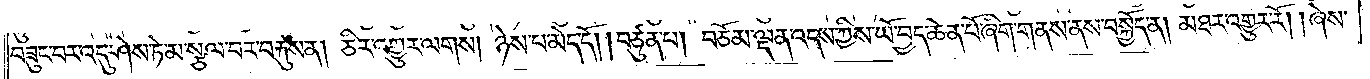བཟུང་བར་འདུ་ཤེས་ཏེ་མ་སྩལ་བར་བརྐུས་ན། ཅིར་འགྱུར་ལགས། ཉེས་པ་མེད་དོ། །བཙུན་པ། བཅོམ་ལྡན་འདས་ཀྱིས་ཡོ་བྱད་ཆེན་པོ་ཞིག་གནས་ནས་བསྐྱོད་ན། མཐར་འགྱུར་རོ། །ཞེས་
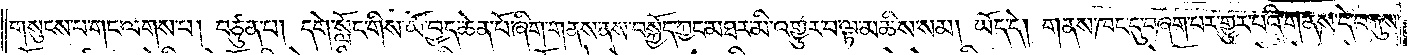གསུངས་པ་གང་ལགས་པ། བཙུན་པ། དགེ་སློང་གིས་ཡོ་བྱད་ཆེན་པོ་ཞིག་གནས་ནས་བསྐྱོད་ཀྱང་མཐར་མི་འགྱུར་བ་ལྟ་མཆིས་སམ། ཡོད་དེ། གནས་ཁང་དུ་བཞག་པར་འགྱུར་པའི་གནས་དེ་བརྐུས་
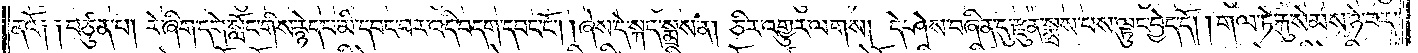ནའོ༑ ༑བཙུན་པ། རེ་ཞིག་དགེ་སློང་གིས་རྙེད་པ་མི་དབང་བར་འདི་བདག་དབང་ངོ༌། །ཞེས་དེ་སྐད་སྨྲས་ན། ཅིར་འགྱུར་ལགས། དེ་ཤེས་བཞིན་དུ་རྫུན་སྨྲས་པས་ལྟུང་བྱེད་དོ། །གལ་ཏེ་རྐུ་སེམས་ཉེ་བར་
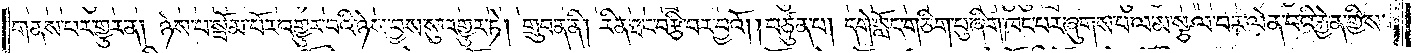གནས་པར་གྱུར་ན། ཉེས་པ་སྦོམ་པོར་འགྱུར་བའི་ཉེས་བྱས་སུ་འགྱུར་ཏེ། གྲུབ་ན་ནི། རིན་ཐང་བརྩི་བར་བྱའོ། །བཙུན་པ། དགེ་སློང་གཅིག་པུ་ཞིག་ཁང་པར་ཞུགས་པ་ལ་མ་སྩལ་བར་ལེན་པའི་རྐྱེན་གྱིས་
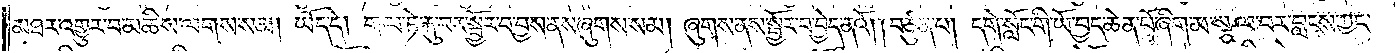མཐར་འགྱུར་བ་མཆིས་ལགས་སམ། ཡོད་དེ། གལ་ཏེ་རྐུ་བར་སྦྱོར་བ་བྱས་ནས་ཞུགས་སམ། ཞུགས་ནས་སྦྱོར་བ་བྱེད་ནའོ། །བཙུན་པ། དགེ་སློང་གི་ཡོ་བྱད་ཆེན་པོ་ཞིག་མ་སྩལ་བར་བླངས་ཀྱང་
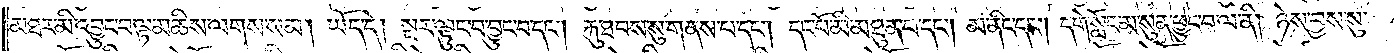མཐར་མི་འབྱུང་བ་ལྟ་མཆིས་ལགས་སམ། ཡོད་དེ། སྔར་ལྟུང་བ་བྱུང་བ་དང༌། རྐུ་ཐབས་སུ་གནས་པ་དང༌། དང་པོ་མི་མཐུན་པ་དང༌། མ་ནིང་དང༌། དགེ་སློང་མ་སུན་ཕྱུང་བ་ལ་ནི། ཉེས་བྱས་སུ་
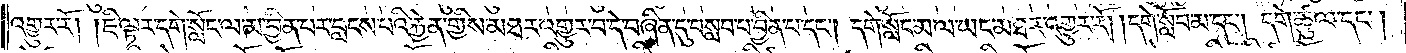འགྱུར་རོ། །ཇི་ལྟར་དགེ་སློང་ལ་མ་བྱིན་པར་བླངས་པའི་རྐྱེན་གྱིས་མཐར་འགྱུར་བ་དེ་བཞིན་དུ་བསླབ་པ་བྱིན་པ་དང༌། དགེ་སློང་མ་ལ་ཡང་མཐར་འགྱུར་རོ། །དགེ་སློབ་མ་དང༌། དགེ་ཚུལ་དང༌།
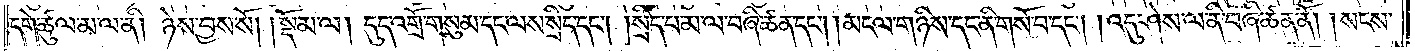དགེ་ཚུལ་མ་ལ་ནི། ཉེས་བྱས་སོ།    །སྡོམ་ལ། དུད་འགྲོ་གསུམ་དང་ལས་སྲིད་དང༌། །སྲིད་པ་མ་ལ་བཞི་ཚན་དང༌། མངལ་གཉིས་དང་ནི་གསོ་བ་དང༌། འདུ་ཤེས་ལ་ནི་བཞི་ཚན་ནོ། །སངས་
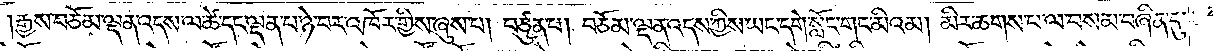།རྒྱས་བཅོམ་ལྡན་འདས་ལ་ཚེ་དང་ལྡན་པ་ཉེ་བར་འཁོར་གྱིས་ཞུས་པ། བཙུན་པ། བཅོམ་ལྡན་འདས་ཀྱིས་ཡང་དགེ་སློང་གང་མིའམ། མིར་ཆགས་པ་ལ་བསམ་བཞིན་དུ་
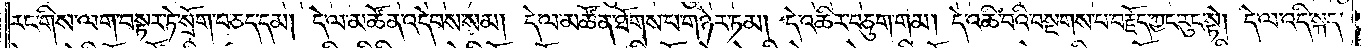རང་གིས་ལག་བསྟར་ཏེ་སྲོག་བཅད་དམ། དེ་ལ་མཚོན་འདེབས་སམ། དེ་ལ་མཚོན་ཐོགས་པ་གཉེར་ཏམ། དེ་འཆིར་བཅུག་གམ། དེ་འཆི་བའི་བསྔགས་པ་བརྗོད་ཀྱང་རུང་སྟེ། དེ་ལ་འདི་སྐད་
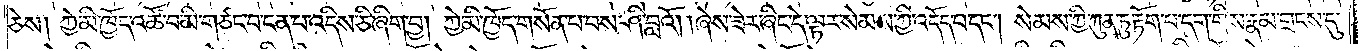ཅེས། ཀྱེ་མི་ཁྱོད་འཚོ་བ་མི་གཙང་བ་ངན་པ་འདིས་ཅི་ཞིག་བྱ། ཀྱེ་མི་ཁྱོད་གསོན་པ་བས་ཤི་བླའོ། །ཞེས་ཟེར་ཞིང་དེ་ལྟར་སེམས་ཀྱི་འདོད་པ་དང༌། སེམས་ཀྱི་ཀུན་ཏུ་རྟོག་པ་དག་གིས་རྣམ་གྲངས་དུ་
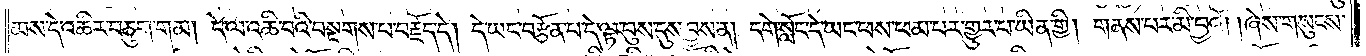མས་དེ་འཆིར་བཅུག་གམ། དེ་ལ་འཆི་བའི་བསྔགས་པ་བརྗོད་དེ། དེ་ཡང་བརྩོན་པ་དེ་ལྟ་བུས་དུས་བྱས་ན། དགེ་སློང་དེ་ཡང་ཕས་ཕམ་པར་གྱུར་པ་ཡིན་གྱི། གནས་པར་མི་བྱའོ། །ཞེས་གསུངས་
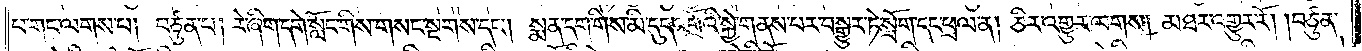པ་གང་ལགས་པ། བཙུན་པ། རེ་ཞིག་དགེ་སློང་གིས་གསང་སྔགས་དང༌། སྨན་དག་གིས་མི་དུད་འགྲོའི་སྐྱེ་གནས་པར་བསྒྱུར་ཏེ་སྲོག་དང་ཕྲལ་ན། ཅིར་འགྱུར་ལགས། མཐར་འགྱུར་རོ། །བཙུན་
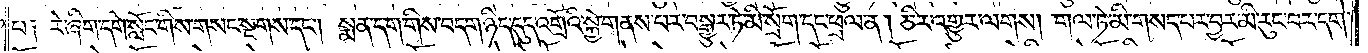པ༑ རེ་ཞིག་དགེ་སློང་གིས་གསང་སྔགས་དང༌། སྨན་དག་གིས་བདག་ཉིད་དུད་འགྲོའི་སྐྱེ་གནས་པར་བསྒྱུར་ཏེ་མི་སྲོག་དང་ཕྲལ་ན། ཅིར་འགྱུར་ལགས། གལ་ཏེ་མི་གསད་པར་བྱར་མི་རུང་བར་དགེ་
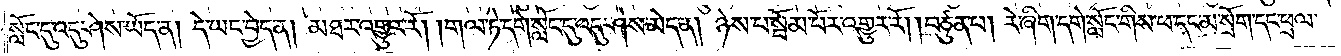སློང་དུ་འདུ་ཤེས་ཡོད་ན། དེ་ཡང་བྱེད་ན། མཐར་འགྱུར་རོ། །གལ་ཏེ་དགེ་སློང་དུ་འདུ་ཤེས་མེད་ན། ཉེས་པ་སྦོམ་པོར་འགྱུར་རོ། །བཙུན་པ། རེ་ཞིག་དགེ་སློང་གིས་ཕ་དང་མ་སྲོག་དང་ཕྲལ་
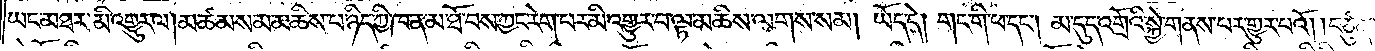ཡང་མཐར་མི་འགྱུར་ལ། མཚམས་མ་མཆིས་པ་ཉིད་ཀྱི་ཁ་ན་མ་ཐོ་བས་ཀྱང་རེག་པར་མི་འགྱུར་བ་ལྟ་མཆིས་ལགས་སམ། ཡོད་དེ། གང་གི་ཕ་དང༌། མ་དུད་འགྲོའི་སྐྱེ་གནས་པར་གྱུར་པའོ། །བཙུན་པ།
